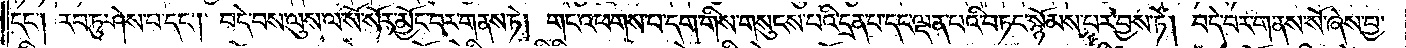དང༌། རབ་ཏུ་ཤེས་པ་དང༌། བདེ་བས་ལུས་ལ་སོ་སོར་མྱོང་བར་གནས་ཏེ། གང་འཕགས་པ་དག་གིས་གསུངས་པའི་དྲན་པ་དང་ལྡན་པའི་བཏང་སྙོམས་པར་བྱས་ཏེ། བདེ་བར་གནས་སོ་ཞེས་བྱ་
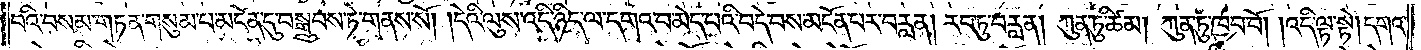བའི་བསམ་གཏན་གསུམ་པ་མངོན་དུ་བསྒྲུབས་ཏེ་གནས་སོ། །དེའི་ལུས་འདི་ཉིད་ལ་དགའ་བ་མེད་པའི་བདེ་བས་མངོན་པར་བརླན། རབ་ཏུ་བརླན། ཀུན་ཏུ་ཚིམ། ཀུན་ཏུ་ཁྱབ་བོ། །འདི་ལྟ་སྟེ། དགའ་
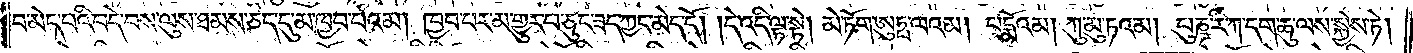བ་མེད་པའི་བདེ་བས་ལུས་ཐམས་ཅད་དུ་མ་ཁྱབ་པའམ། ཁྱབ་པར་མ་གྱུར་པ་ཅུང་ཟད་ཀྱང་མེད་དོ། །དེ་འདི་ལྟ་སྟེ། མེ་ཏོག་ཨུཏྤ་ལའམ། པདྨོའམ། ཀུ་མུ་ཏའམ། པུཎྜ་རི་ཀ་དག་ཆུ་ལས་སྐྱེས་ཏེ།
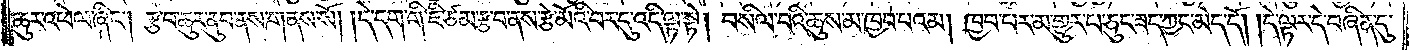ཆུར་འཕེལ་ཞིང༌། རྩ་བ་ཆུར་ནུབ་ནས་གནས་སོ། །དེ་དག་གི་ཇི་ཙམ་རྩ་བ་ནས་རྩེ་མོའི་བར་དུ་འདི་ལྟ་སྟེ། བསིལ་བའི་ཆུས་མ་ཁྱབ་པའམ། ཁྱབ་པར་མ་གྱུར་པ་ཅུང་ཟད་ཀྱང་མེད་དོ། །དེ་ལྟར་དེ་བཞིན་དུ་
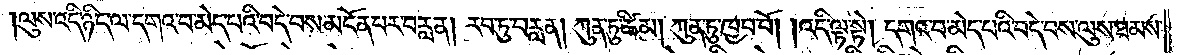ལུས་འདི་ཉིད་ལ་དགའ་བ་མེད་པའི་བདེ་བས་མངོན་པར་བརླན། རབ་ཏུ་བརླན། ཀུན་ཏུ་ཚིམ། ཀུན་ཏུ་ཁྱབ་བོ། །འདི་ལྟ་སྟེ། དགའ་བ་མེད་པའི་བདེ་བས་ལུས་ཐམས་
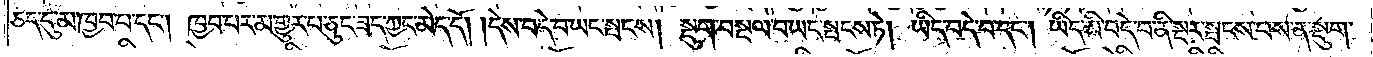ཅད་དུ་མ་ཁྱབ་པ་དང༌། ཁྱབ་པར་མ་གྱུར་པ་ཅུང་ཟད་ཀྱང་མེད་དོ། །དེས་བདེ་བ་ཡང་སྤངས། སྡུག་བསྔལ་བ་ཡང་སྤངས་ཏེ། ཡིད་བདེ་བ་དང༌། ཡིད་མི་བདེ་བ་ནི་སྔར་སྤངས་པས་ན་སྡུག་
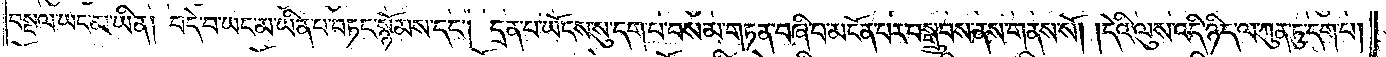བསྔལ་ཡང་མ་ཡིན། བདེ་བ་ཡང་མ་ཡིན་པ་བཏང་སྙོམས་དང༌། དྲན་པ་ཡོངས་སུ་དག་པ་བསམ་གཏན་བཞི་བ་མངོན་པར་བསྒྲུབས་ནས་གནས་སོ། །དེའི་ལུས་འདི་ཉིད་ལ་ཀུན་ཏུ་དག་པ་
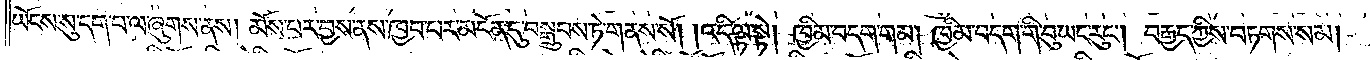ཡོངས་སུ་དག་པ་ལ་ཞུགས་ནས། མོས་པར་བྱས་ནས་ཁྱབ་པར་མངོན་དུ་བསྒྲུབས་ཏེ་གནས་སོ། །འདི་ལྟ་སྟེ། ཁྱིམ་བདག་གམ། ཁྱིམ་བདག་གི་བུ་ཡང་རུང༌། བརྒྱད་ཀྱིས་བཏགས་སམ།
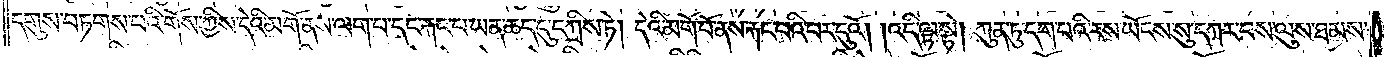དགུས་བཏགས་པའི་གོས་ཀྱིས་དེའི་མགོ་ནས་ལག་པ་དང་རྐང་པ་ཡན་ཆད་དུ་དཀྲིས་ཏེ། དེའི་མགོ་བོ་ནས་རྐང་པའི་བར་དུའོ། །འདི་ལྟ་སྟེ། ཀུན་ཏུ་དག་པའི་རས་ཡོངས་སུ་དཀར་བས་ལུས་ཐམས་
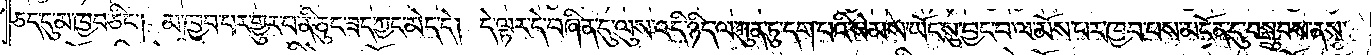ཅད་དུ་མ་ཁྱབ་ཅིང༌། མ་ཁྱབ་པར་གྱུར་པ་ནི་ཅུང་ཟད་ཀྱང་མེད་དེ། དེ་ལྟར་དེ་བཞིན་དུ་ལུས་འདི་ཉིད་ལ་ཀུན་ཏུ་དག་པའི་སེམས་ཡོང་སུ་བྱང་བ་ལ་མོས་པར་ཁྱབ་པས་མངོན་དུ་བསྒྲུབས་ནས་
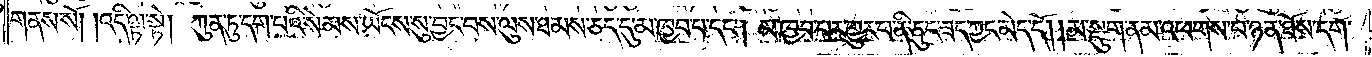གནས་སོ། །འདི་ལྟ་སྟེ། ཀུན་ཏུ་དག་པའི་སེམས་ཡོངས་སུ་བྱང་བས་ལུས་ཐམས་ཅད་དུ་མ་ཁྱབ་པ་དང༌། མ་ཁྱབ་པར་གྱུར་པ་ནི་ཅུང་ཟད་ཀྱང་མེད་དོ། །མ་སྡུག་ནམ་འཕགས་པ་ཉན་ཐོས་དག་
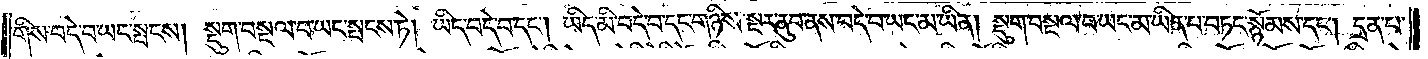གིས་བདེ་བ་ཡང་སྤངས། སྡུག་བསྔལ་བ་ཡང་སྤངས་ཏེ། ཡིད་བདེ་བ་དང༌། ཡིད་མི་བདེ་བ་དང་གཉིས་སྔར་ནུབ་ནས་བདེ་བ་ཡང་མ་ཡིན། སྡུག་བསྔལ་བ་ཡང་མ་ཡིན་པ་བཏང་སྙོམས་དང༌། དྲན་པ་
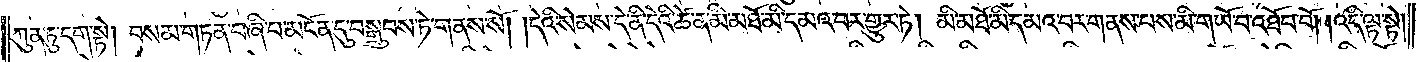ཀུན་ཏུ་དག་སྟེ། བསམ་གཏན་བཞི་པ་མངོན་དུ་བསྒྲུབས་ཏེ་གནས་སོ། །དེའི་སེམས་དེ་ནི་དེའི་ཚེ་ན་མི་མཐོ་མི་དམའ་བར་གྱུར་ཏེ། མི་མཐོ་མི་དམའ་བར་གནས་པས་མི་གཡོ་བ་འཐོབ་བོ། །འདི་ལྟ་སྟེ།
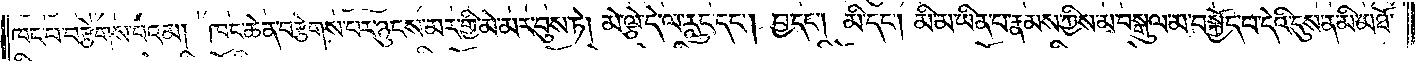ཁང་པ་བརྩེགས་པའམ། ཁང་ཆེན་བརྩེགས་པར་ཉུངས་མར་གྱི་མེ་མར་བུས་ཏེ། མེ་ལྕེ་དེ་ལ་རླུང་དང༌། བྱ་དང༌། མི་དང༌། མི་མ་ཡིན་པ་རྣམས་ཀྱིས་མ་བསྒུལ་མ་བསྐྱོད་པ་དེའི་དུས་ན་མི་མཐོ་
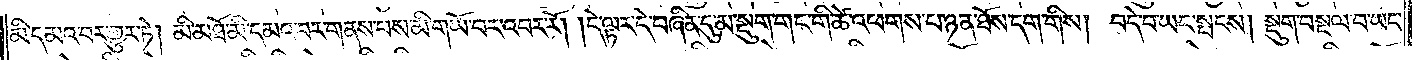མི་དམའ་བར་གྱུར་ཏེ། མི་མཐོ་མི་དམའ་བར་གནས་པས་མི་གཡོ་བར་འབར་རོ། །དེ་ལྟར་དེ་བཞིན་དུ་མ་སྡུག་གང་གི་ཚེ་འཕགས་པ་ཉན་ཐོས་དག་གིས། བདེ་བ་ཡང་སྤངས། སྡུག་བསྔལ་བ་ཡང་
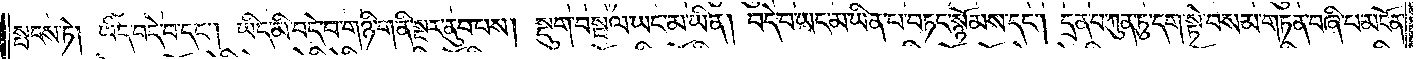སྤངས་ཏེ། ཡིད་བདེ་བ་དང༌། ཡིད་མི་བདེ་བ་གཉི་ག་ནི་སྔར་ནུབ་པས། སྡུག་བསྔལ་ཡང་མ་ཡིན། བདེ་བ་ཡང་མ་ཡིན་པ་བཏང་སྙོམས་དང༌། དྲན་པ་ཀུན་ཏུ་དག་སྟེ་བསམ་གཏན་བཞི་པ་མངོན་
